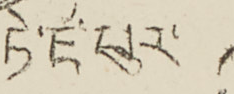ཏེ་ཛ་པུར་
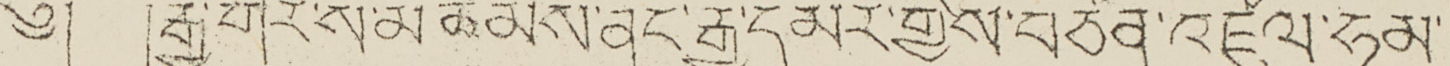༄། །རྒྱ་གར་ས་མཚམས་ནང་རྒྱ་དམར་གྱིས་བཙན་འཛུལ་ཧམ་
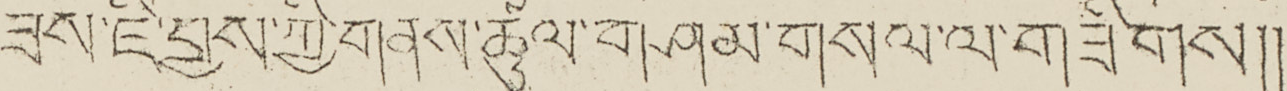ཟས་ཇི་བྱས་ཀྱི་གནས་ཚུལ་གཤམ་གསལ་ལ་གཟིགས།།
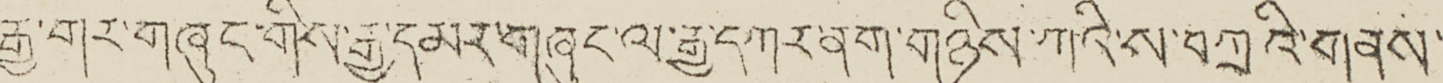རྒྱ་གར་གཞུང་གིས་རྒྱ་དམར་གཞུང་ལ་རྒྱ་དཀར་ནག་གཉིས་ཀའི་ས་བཀྲའི་གནས་
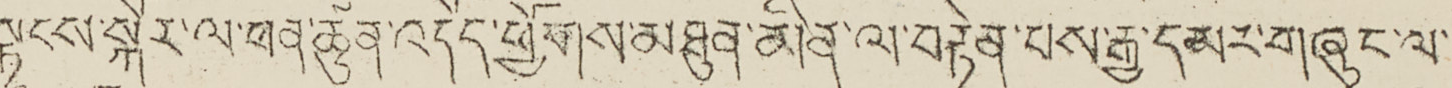སྟངས་སྐོར་ལ་ཕན་ཚུན་འདོད་ཕྱོགས་མཐུན་མིན་ལ་བརྟེན་པས་རྒྱ་དམར་གཞུང་ལ་
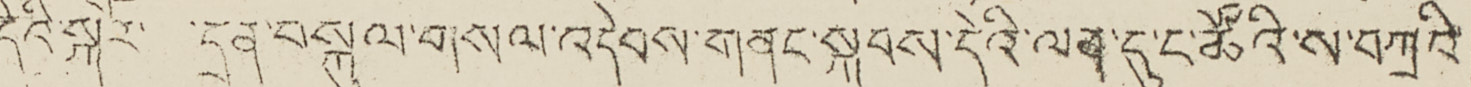དེའི་སྐོར་ ་དྲན་བསྐུལ་གསལ་འདེབས་གནང་སྐབས་དེའི་ལན་དུ་ང་ཚོའི་ས་བཀྲའི་
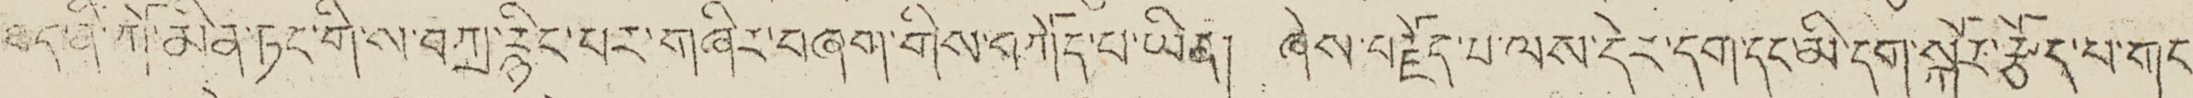ཐད་ནི་ཀོ་མིན་ཏང་གི་ས་བཀྲ་རྙིང་པར་གཞིར་བཞག་གིས་བཀོད་པ་ཡིན། ཞེས་བརྗོད་པ་ལས་དེར་དག་དང་མི་དག་སྐོར་རྩོད་པ་གང་
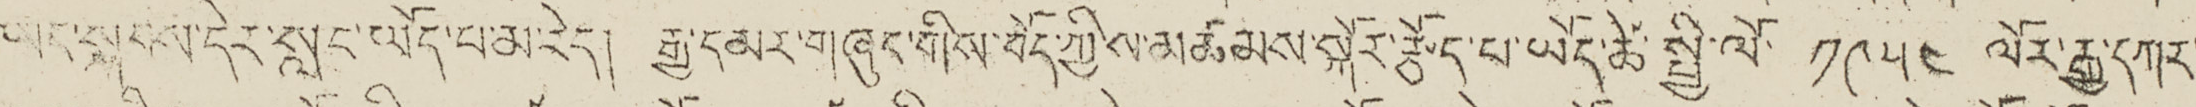ཡང་སྐབས་དེར་སླང་ཡོད་པ་མ་རེད། རྒྱ་དམར་གཞུང་གིས་བོད་ཀྱི་ས་མཚམས་སྐོར་རྩོད་པ་ཡོད་ཚེ་སྤྱི་ལོ་ ༡༩༥༤ ལོར་རྒྱ་དཀར་
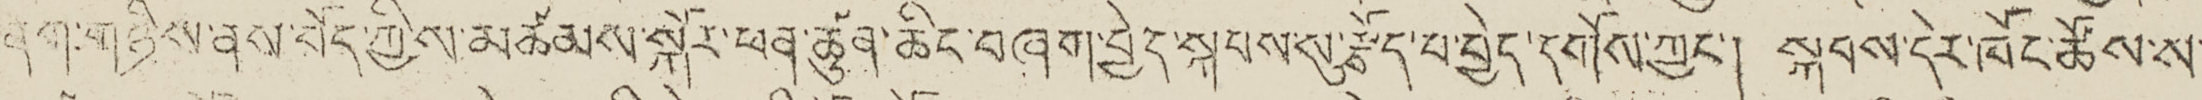ནག་གཉིས་ནས་བོད་ཀྱི་ས་མཚམས་སྐོར་ཕན་ཚུན་ཆིང་བཞག་བྱེད་སྐབས་སུ་རྩོད་པ་བྱེད་དགོས་ཀྱང་། སྐབས་དེར་ཁོང་ཚོས་ས་
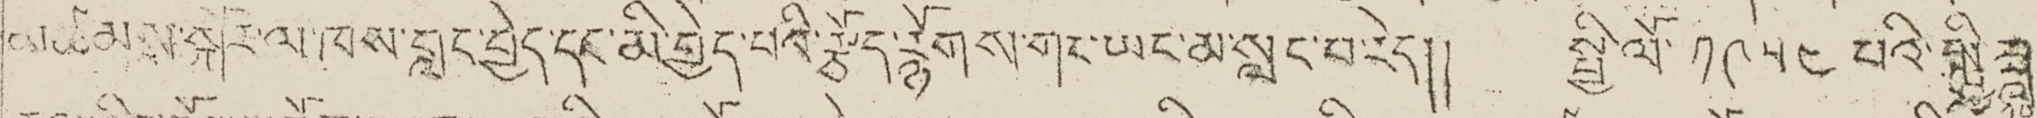མཚམས་སྐོར་ལ་ཁས་བླང་བྱེད་དང་མི་བྱེད་པའི་རྩོད་རྙོགས་གར་ཡང་མ་སླང་པ་རེད།། སྤྱི་ལོ་ ༡༩༥༤ པའི་སྤྱི་ཟླ་
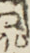༡༠
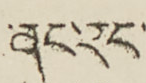ནང་རང་
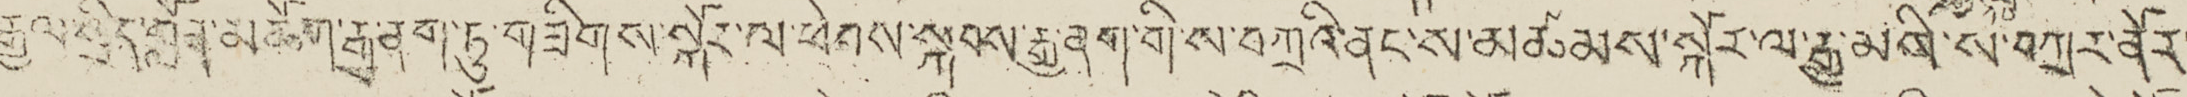རྒྱལ་སྲིད་བློན་མཆོག་རྒྱ་ནག་ཏུ་གཟིགས་སྐོར་ལ་ཕེབས་སྐབས་རྒྱ་ནག་གི་ས་བཀྲའི་ནང་ས་མཚམས་སྐོར་ལ་རྒྱ་མསི་ས་བཀྲར་ནོར་
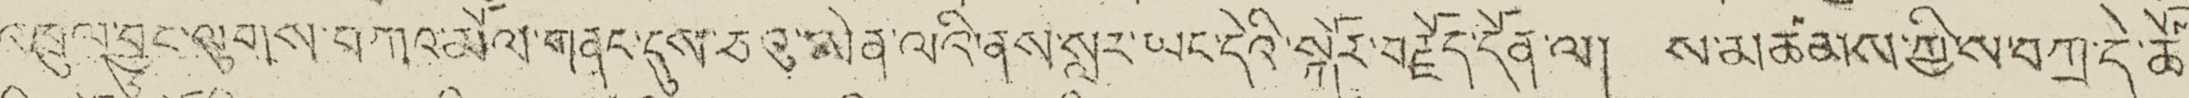འཁྲུལ་བྱུང་ལུགས་བཀའ་མོལ་གནང་དུས་ཅའུ་ཨེན་ལའི་ནས་སླར་ཡང་དེའི་སྐོར་བརྗོད་དོན་ལ། ས་མཚམས་ཀྱིས་བཀྲ་དེ་ཚོ་
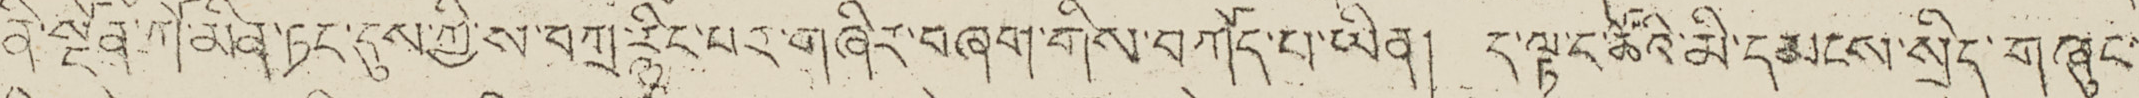ནི་སྔོན་ཀོ་མིན་ཏང་དུས་ཀྱིས་བཀྲ་རྙིང་པར་གཞིར་བཞག་གིས་བཀོད་པ་ཡིན། ད་ལྟ་ང་ཚོའི་མི་དམངས་སྲིད་གཞུང་
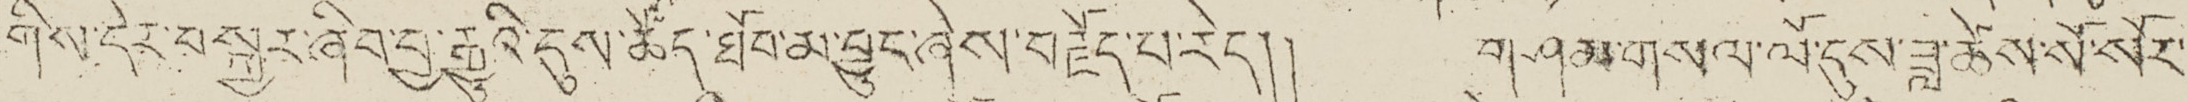གིས་དེར་བསྐྱར་ཞིབ་བྱ་རྒྱུའི་དུས་ཚོད་ཐོབ་མ་བྱུང་ཞེས་བརྗོད་པ་རེད།། གཤམ་གསལ་ལོ་དུས་ཟླ་ཚེས་སོ་སོར་
